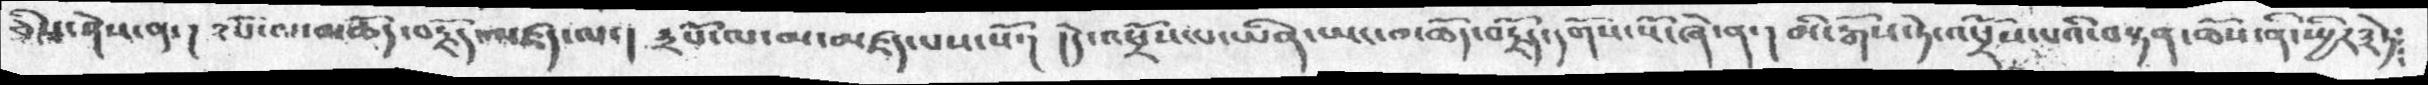ཅིས་ཤེས་ན་། ༢པོ་ལ་མཆོད་བརྗོད་མཛད་ལ། ༣པོ་ལ་མ་མཛད་པས་སོ།  །དེ་འཕྲོས་པ་ཡིན་ཡང་མཆོད་བརྗོད་དགོས་སོ་ཞེ་ན་། མི་སྒོས་ཏེ་འཕྲོས་པའི་བསྟན་ཆོས་ནི་སྤྱིར་༣ཏེ་
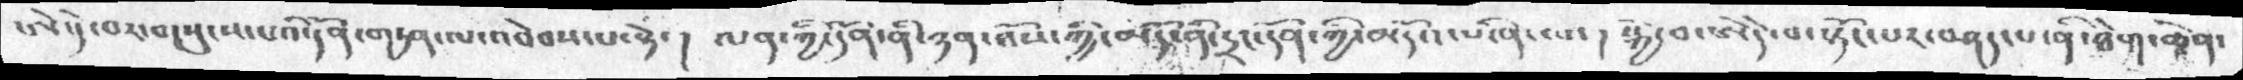ཨེ་དེ་བར་གསུངས་པའི་དོན་གཏན་ལ་འབེབས་པ་སྟེ། ལན་གྱི་དོན་ནི་ཉན་ཐོས་ཀྱི་མདོ་ནི་དྲང་དོན་གྱི་མདོ་ཡིན་པས་། སྐྱེ་བ་ཨེ་དེ་བ་སྟོང་པར་བཤད་པ་ནི་ཐེག་ཆེན་
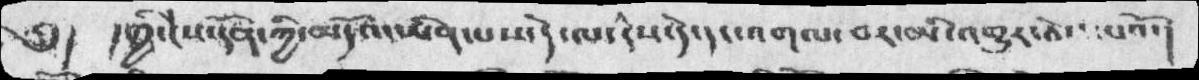༄།  ། ཀྱི་ངེས་དོན་ཀྱི་མདོའ་ཡིན་པས་དེ་ལ་རིས་དེ་དང་འགལ་བར་མི་འགྱུར་ཅེས་པའོ་།
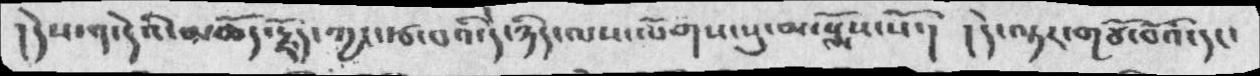། དེས་ག་དེའི་མཆོད་རྗོད་ཀྱང་རྩ་བའི་དེ་ཉིད་ལས་ལོགས་སུ་མ་སྨོས་སོ་།   ། དེ་ལྟར་གཙོ་བོའི་དང་
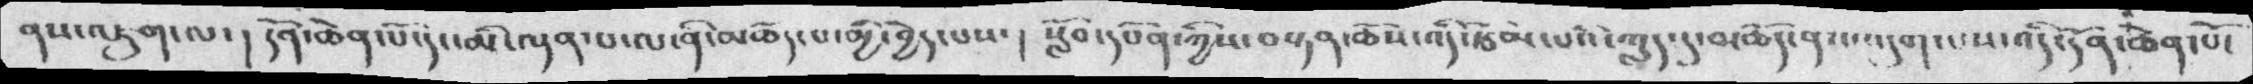ནས་འཇུག་ལ་།  དོན་ཆེན་པོ་དང་མི་ལྡན་པ་ལ་ནི་མཆོད་པ་མྱི་བྱེད་པས་།  སློབ་དཔོན་ཀྱིས་བསྟན་ཆོས་འདི་རྩོམ་པའི་ཀླད་དུ་མཆོད་ནས་འདུག་པས་འདི་དོན་ཆེན་པོ་
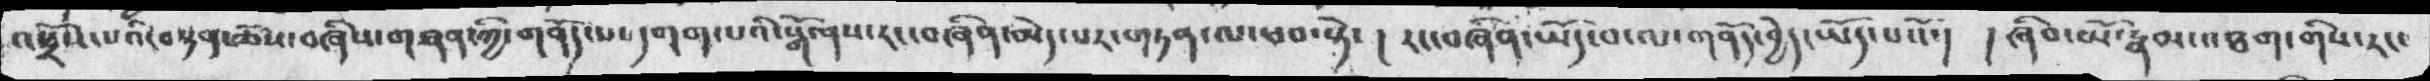འཕྲོས་པའི་བསྟན་ཆོས་བཞིས་གཞན་ཀྱི་གནོད་པ་དགག་པའི་སྒོ་ནས་རང་བཞིན་མེད་པར་གཏན་ལ་ཕབ་སྟེ་།  རང་བཞིན་ཡོད་པ་ལ་གནོད་བྱེད་ཡོད་པའོ་།  ། ཞིབ་མོ་རྣམ་འཐག་གིས་རང་
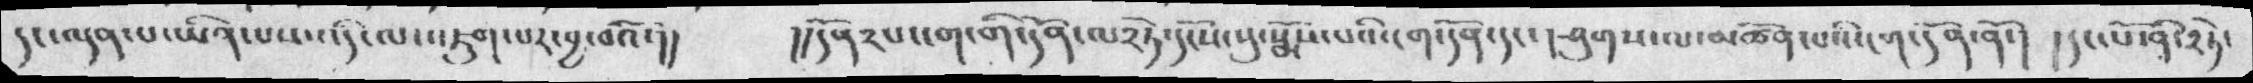དང་ལྡན་པ་ཡིན་པས་འདི་ལ་འཇུག་པར་བྱ་བའོ་།།  །། དོན༢པ་ངག་གི་དོན་ལ་༢ཏེ་དངོས་སུ་སྨོས་པའི་ངག་དོན་དང་།  ཤུགས་ལ་མཚོན་པའི་ངག་དོན་ནོ་།  །དང་པོ་ནི་༢ཏེ་
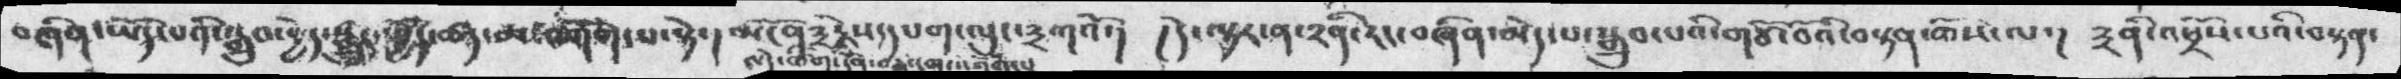བཞིན་ཡོད་པའི་སྒྲུབ་བྱེད་སྒྱུར་ཕྱོད་ཚད་མ་འགོག་པ་སྟེ་།  མངོན་༣རྗེས་དཔག་ལུང་༣གའོ་།  ། དེ་ལྟར་ན་ཉིན་རང་བཞིན་མེད་པ་སྒྲུབ་པའི་གཙོ་བོའི་བསྟན་ཆོས་ལ་།  ༣ནི་འཕྲོས་པའི་བསྟན་
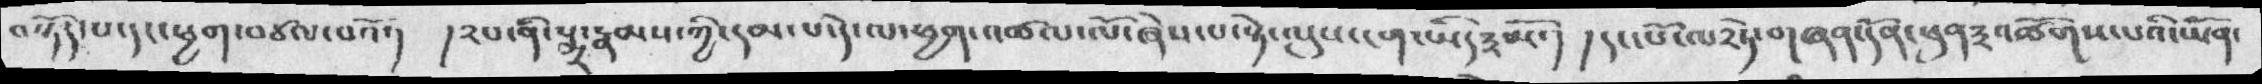བསྟོད་པ་དང་ཕྱག་འཚལ་བའོ་།  །༢པ་ནི་སྒྲ་རྣམས་ཀྱི་དམ་པ་དེ་ལ་ཕྱག་འཚལ་ལོ་ཞེས་པ་སྟེ་ལུས་ངག་ཡིད༣མོ་།  །དང་པོ་ལ་༢ཏེ་གཞན་དོན་ཕུན༣་འཚོགས་པའི་ཡོན་
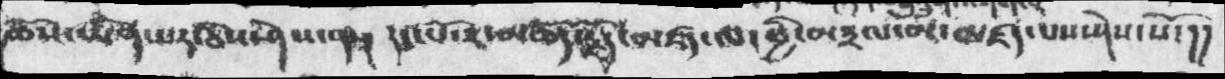ཆོས་ཡིན་པར་ཅེས་ཤེས་ན་།  དང་པ་ར་མཆོད་རྗོད་མཛད་ལ་ཕྱི་མསྒྲལ་བར་མཛད་པས་ཤེས་སོ་།།
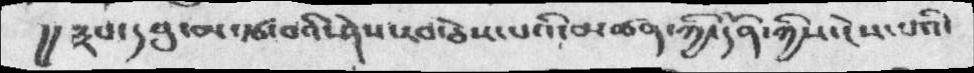།། སྒྲས་དབུ་མ་རྩ་བའི་ཤེས་རབ་ཅེས་པའི་མཚན་ཀྱི་དོན་ཀྱིས་ངེས་པའི་
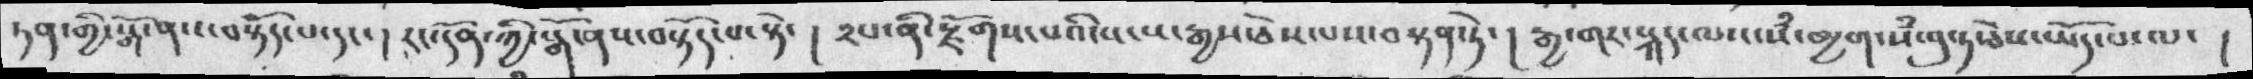ཏན་གྱི་སྒོ་ནས་བསྟོད་པ་དང་།  རང་དོན་ཀྱི་སྒོ་ནས་བསྟོད་པ་སྟེ་ ། ༢པ་ནི་རྫོགས་པའི་སངས་རྒྱས་ཅེས་པས་བསྟན་ཏེ་།  རྒྱ་གར་སྐད་ལས་སཾ་མྱག་སཾ་བུ་ཏ་ཅེས་ཡོད་པ་ལ་ །
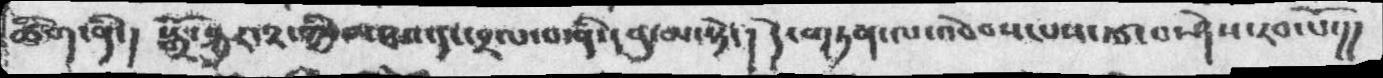ཚིག་ནི་།  སྒྲོ་སྐུར་༢་ཀྱི་མཐའ་དང་བྲལ་བ་ནི་དབུ་མ་སྟེ་།  དེ་གཏན་ལ་འབེབས་པས་རྩ་བ་ཤེས་རབ་པོ་།།
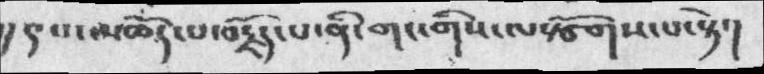།།  །པ་མཆོད་པ་བརྗོད་པ་ནི་གང་གིས་ལསྩོགས་པ་སྟེ་།
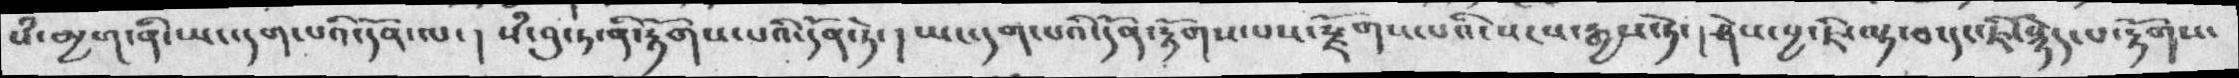སཾ་མྱག་ནི་ཡང་དག་པའི་དོན་ལ་།  སཾ་བུ་ཏ་ནི་རྟོགས་པའི་དོན་ཏེ་།  ཡང་དག་པའི་དོན་རྟོགས་པས་རྫོགས་པའི་སངས་རྒྱས་ཏེ་།  ཤེས་བྱ་ཇི་ལྟ་བ་དང་ཇི་སྙེད་པ་རྟོགས་
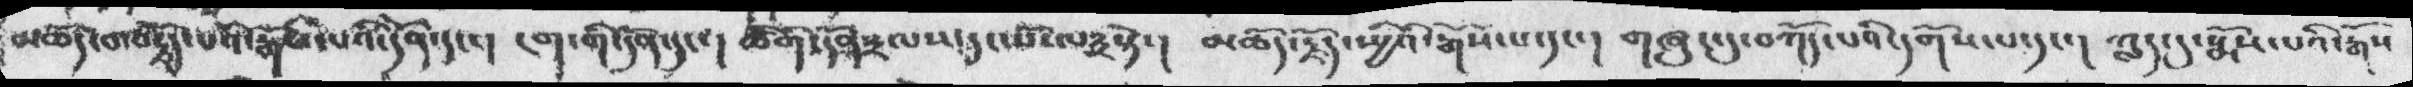མཆོད་པ་བརྗོད་པའི་སྒོས་པའི་དོན་དང་།  ངག་གི་དོན་དང་། ཚིགི་དོན་༢ལས་དང་པོ་ལ༣སྟེ་།  མཆོད་རྗོད་སྤྱིའི་སྒོས་པ་དང་།  གཞུང་དུ་བཀོད་པའི་དགོས་པ་དང་།  ཀླད་དུ་སྨོས་པའི་སྒོས་
